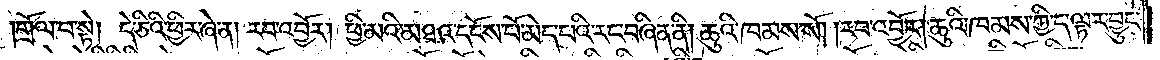གྲོལ་བ་སྟེ། དེ་ཅིའི་ཕྱིར་ཞེ་ན། རབ་འབྱོར། ཕྱི་མའི་མཐའ་དངོས་པོ་མེད་པའི་རང་བཞིན་ནི། ཆུའི་ཁམས་སོ། །རབ་འབྱོར། ཆུའི་ཁམས་ཀྱི་ད་ལྟར་བྱུང་
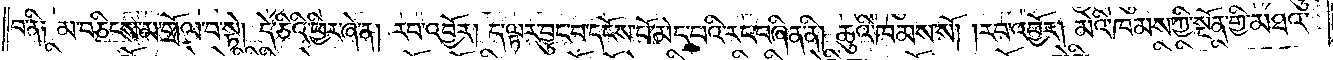བ་ནི༑ མ་བཅིངས་མ་གྲོལ་བ་སྟེ། དེ་ཅིའི་ཕྱིར་ཞེ་ན། རབ་འབྱོར། ད་ལྟར་བྱུང་བ་དངོས་པོ་མེད་པའི་རང་བཞིན་ནི། ཆུའི་ཁམས་སོ། །རབ་འབྱོར། མེའི་ཁམས་ཀྱི་སྔོན་གྱི་མཐའ་
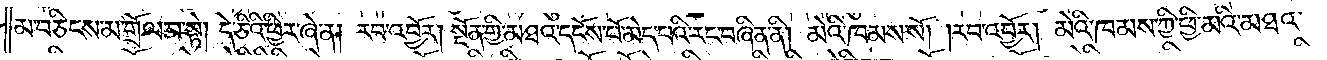མ་བཅིངས་མ་གྲོལ་བ་སྟེ། དེ་ཅིའི་ཕྱིར་ཞེ་ན། རབ་འབྱོར། སྔོན་གྱི་མཐའ་དངོས་པོ་མེད་པའི་རང་བཞིན་ནི། མེའི་ཁམས་སོ། །རབ་འབྱོར། མེའི་ཁམས་ཀྱི་ཕྱི་མའི་མཐའ་
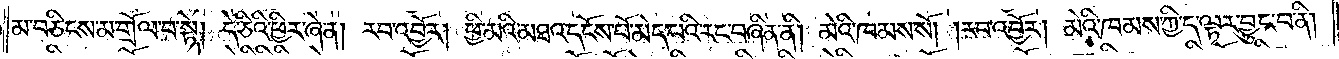མ་བཅིངས་མ་གྲོལ་བ་སྟེ། དེ་ཅིའི་ཕྱིར་ཞེ་ན། རབ་འབྱོར། ཕྱི་མའི་མཐའ་དངོས་པོ་མེད་པའི་རང་བཞིན་ནི། མེའི་ཁམས་སོ། །རབ་འབྱོར། མེའི་ཁམས་ཀྱི་ད་ལྟར་བྱུང་བ་ནི།
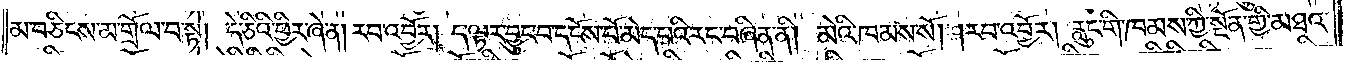མ་བཅིངས་མ་གྲོལ་བ་སྟེ། དེ་ཅིའི་ཕྱིར་ཞེ་ན། རབ་འབྱོར། ད་ལྟར་བྱུང་བ་དངོས་པོ་མེད་པའི་རང་བཞིན་ནི། མེའི་ཁམས་སོ། །རབ་འབྱོར། རླུང་གི་ཁམས་ཀྱི་སྔོན་གྱི་མཐའ་
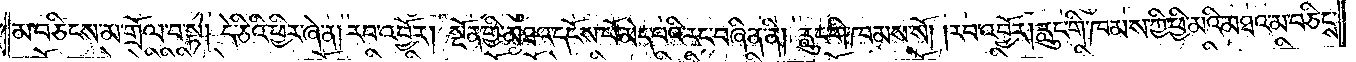མ་བཅིངས་མ་གྲོལ་བ་སྟེ། དེ་ཅིའི་ཕྱིར་ཞེ་ན། རབ་འབྱོར། སྔོན་གྱི་མཐའ་དངོས་པོ་མེད་པའི་རང་བཞིན་ནི། རླུང་གི་ཁམས་སོ། །རབ་འབྱོར། རླུང་གི་ཁམས་ཀྱི་ཕྱི་མའི་མཐའ་མ་བཅིངས་
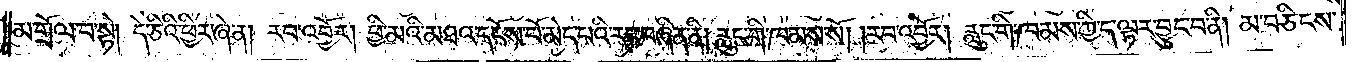མ་གྲོལ་བ་སྟེ། དེ་ཅིའི་ཕྱིར་ཞེ་ན། རབ་འབྱོར། ཕྱི་མའི་མཐའ་དངོས་པོ་མེད་པའི་རང་བཞིན་ནི། རླུང་གི་ཁམས་སོ། །རབ་འབྱོར། རླུང་གི་ཁམས་ཀྱི་ད་ལྟར་བྱུང་བ་ནི། མ་བཅིངས་
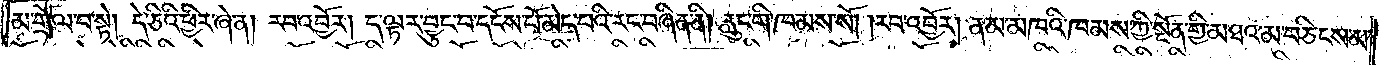མ་གྲོལ་བ་སྟེ། དེ་ཅིའི་ཕྱིར་ཞེ་ན། རབ་འབྱོར། ད་ལྟར་བྱུང་བ་དངོས་པོ་མེད་པའི་རང་བཞིན་ནི། རླུང་གི་ཁམས་སོ། །རབ་འབྱོར། ནམ་མཁའི་ཁམས་ཀྱི་སྔོན་གྱི་མཐའ་མ་བཅིངས་མ་
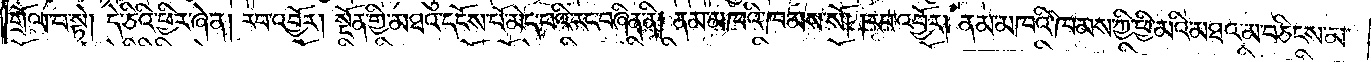གྲོལ་བ་སྟེ། དེ་ཅིའི་ཕྱིར་ཞེ་ན། རབ་འབྱོར། སྔོན་གྱི་མཐའ་དངོས་པོ་མེད་པའི་རང་བཞིན་ནི། ནམ་མཁའི་ཁམས་སོ། །རབ་འབྱོར། ནམ་མཁའི་ཁམས་ཀྱི་ཕྱི་མའི་མཐའ་མ་བཅིངས་མ་
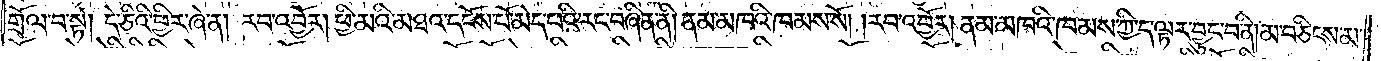གྲོལ་བ་སྟེ། དེ་ཅིའི་ཕྱིར་ཞེ་ན། རབ་འབྱོར། ཕྱི་མའི་མཐའ་དངོས་པོ་མེད་པའི་རང་བཞིན་ནི། ནམ་མཁའི་ཁམས་སོ། །རབ་འབྱོར། ནམ་མཁའི་ཁམས་ཀྱི་ད་ལྟར་བྱུང་བ་ནི། མ་བཅིངས་མ་
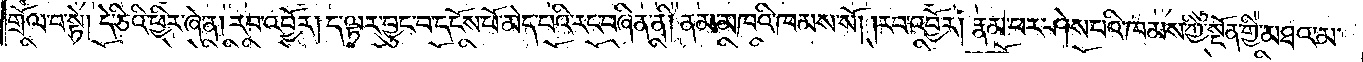གྲོལ་བ་སྟེ། དེ་ཅིའི་ཕྱིར་ཞེ་ན། རབ་འབྱོར། ད་ལྟར་བྱུང་བ་དངོས་པོ་མེད་པའི་རང་བཞིན་ནི། ནམ་མཁའི་ཁམས་སོ། །རབ་འབྱོར། རྣམ་པར་ཤེས་པའི་ཁམས་ཀྱི་སྔོན་གྱི་མཐའ་མ་
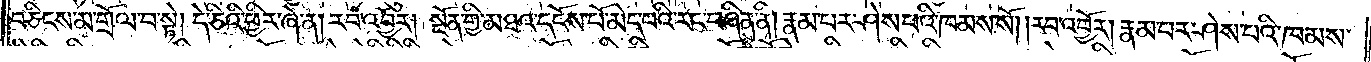བཅིངས་མ་གྲོལ་བ་སྟེ། དེ་ཅིའི་ཕྱིར་ཞེ་ན། རབ་འབྱོར། སྔོན་གྱི་མཐའ་དངོས་པོ་མེད་པའི་རང་བཞིན་ནི། རྣམ་པར་ཤེས་པའི་ཁམས་སོ། །རབ་འབྱོར། རྣམ་པར་ཤེས་པའི་ཁམས་
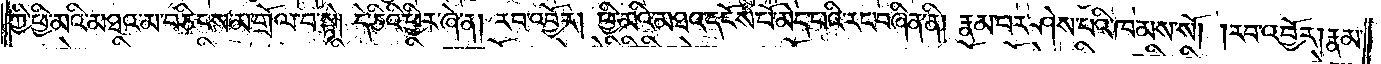ཀྱི་ཕྱི་མའི་མཐའ་མ་བཅིངས་མ་གྲོལ་བ་སྟེ། དེ་ཅིའི་ཕྱིར་ཞེ་ན། རབ་འབྱོར། ཕྱི་མའི་མཐའ་དངོས་པོ་མེད་པའི་རང་བཞིན་ནི། རྣམ་པར་ཤེས་པའི་ཁམས་སོ། །རབ་འབྱོར། རྣམ་
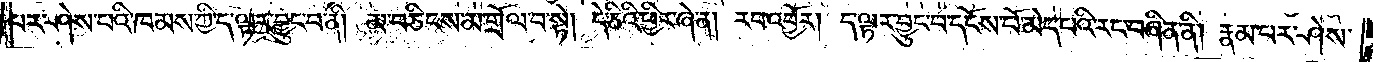པར་ཤེས་པའི་ཁམས་ཀྱི་ད་ལྟར་བྱུང་བ་ནི། མ་བཅིངས་མ་གྲོལ་བ་སྟེ། དེ་ཅིའི་ཕྱིར་ཞེ་ན། རབ་འབྱོར། ད་ལྟར་བྱུང་བ་དངོས་པོ་མེད་པའི་རང་བཞིན་ནི། རྣམ་པར་ཤེས་
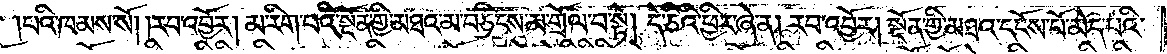པའི་ཁམས་སོ། །རབ་འབྱོར། མ་རིག་པའི་སྔོན་གྱི་མཐའ་མ་བཅིངས་མ་གྲོལ་བ་སྟེ། དེ་ཅིའི་ཕྱིར་ཞེ་ན། རབ་འབྱོར། སྔོན་གྱི་མཐའ་དངོས་པོ་མེད་པའི་
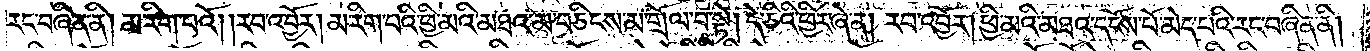རང་བཞིན་ནི། མ་རིག་པའོ། །རབ་འབྱོར། མ་རིག་པའི་ཕྱི་མའི་མཐའ་མ་བཅིངས་མ་གྲོལ་བ་སྟེ། དེ་ཅིའི་ཕྱིར་ཞེ་ན། རབ་འབྱོར། ཕྱི་མའི་མཐའ་དངོས་པོ་མེད་པའི་རང་བཞིན་ནི།
